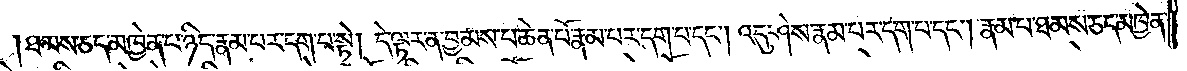ཐམས་ཅད་མཁྱེན་པ་ཉིད་རྣམ་པར་དག་པ་སྟེ། དེ་ལྟར་ན་བྱམས་པ་ཆེན་པོ་རྣམ་པར་དག་པ་དང༌། འདུ་ཤེས་རྣམ་པར་དག་པ་དང༌། རྣམ་པ་ཐམས་ཅད་མཁྱེན་
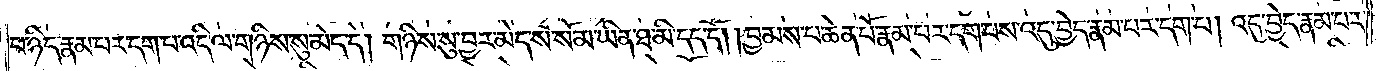པ་ཉིད་རྣམ་པར་དག་པ་འདི་ལ་གཉིས་སུ་མེད་དེ། གཉིས་སུ་བྱར་མེད་སོ་སོ་མ་ཡིན་ཐ་མི་དད་དོ། །བྱམས་པ་ཆེན་པོ་རྣམ་པར་དག་པས་འདུ་བྱེད་རྣམ་པར་དག་པ། འདུ་བྱེད་རྣམ་པར་
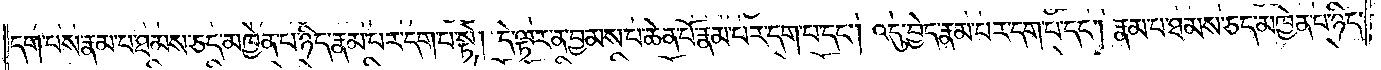དག་པས་རྣམ་པ་ཐམས་ཅད་མཁྱེན་པ་ཉིད་རྣམ་པར་དག་པ་སྟེ། དེ་ལྟར་ན་བྱམས་པ་ཆེན་པོ་རྣམ་པར་དག་པ་དང༌། འདུ་བྱེད་རྣམ་པར་དག་པ་དང༌། རྣམ་པ་ཐམས་ཅད་མཁྱེན་པ་ཉིད་
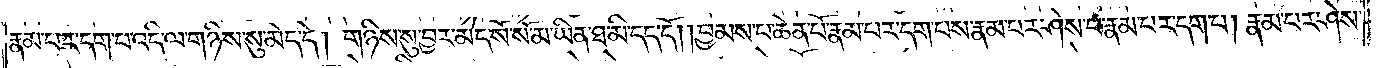རྣམ་པར་དག་པ་འདི་ལ་གཉིས་སུ་མེད་དེ། གཉིས་སུ་བྱར་མེད་སོ་སོ་མ་ཡིན་ཐ་མི་དད་དོ། །བྱམས་པ་ཆེན་པོ་རྣམ་པར་དག་པས་རྣམ་པར་ཤེས་པ་རྣམ་པར་དག་པ། རྣམ་པར་ཤེས་
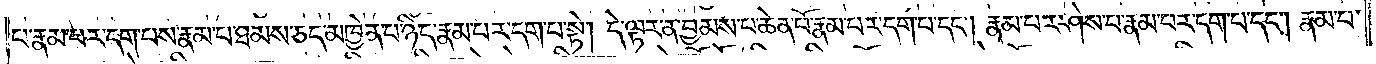པ་རྣམ་པར་དག་པས་རྣམ་པ་ཐམས་ཅད་མཁྱེན་པ་ཉིད་རྣམ་པར་དག་པ་སྟེ། དེ་ལྟར་ན་བྱམས་པ་ཆེན་པོ་རྣམ་པར་དག་པ་དང༌། རྣམ་པར་ཤེས་པ་རྣམ་པར་དག་པ་དང༌། རྣམ་པ་
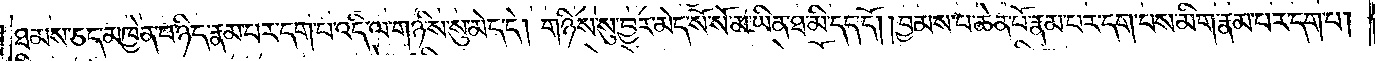ཐམས་ཅད་མཁྱེན་པ་ཉིད་རྣམ་པར་དག་པ་འདི་ལ་གཉིས་སུ་མེད་དེ། གཉིས་སུ་བྱར་མེད་སོ་སོ་མ་ཡིན་ཐ་མི་དད་དོ། །བྱམས་པ་ཆེན་པོ་རྣམ་པར་དག་པས་མིག་རྣམ་པར་དག་པ།
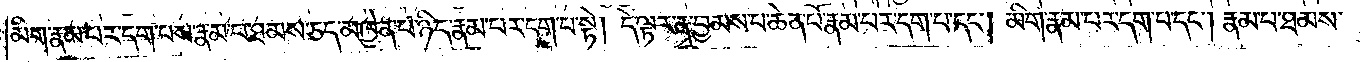མིག་རྣམ་པར་དག་པས་རྣམ་པ་ཐམས་ཅད་མཁྱེན་པ་ཉིད་རྣམ་པར་དག་པ་སྟེ། དེ་ལྟར་ན་བྱམས་པ་ཆེན་པོ་རྣམ་པར་དག་པ་དང༌། མིག་རྣམ་པར་དག་པ་དང༌། རྣམ་པ་ཐམས་
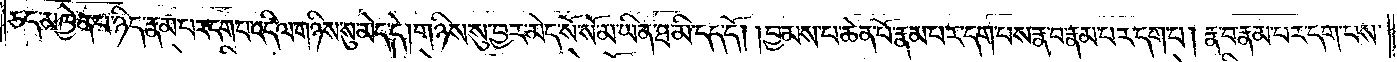ཅད་མཁྱེན་པ་ཉིད་རྣམ་པར་དག་པ་འདི་ལ་གཉིས་སུ་མེད་དེ། གཉིས་སུ་བྱར་མེད་སོ་སོ་མ་ཡིན་ཐ་མི་དད་དོ། །བྱམས་པ་ཆེན་པོ་རྣམ་པར་དག་པས་རྣ་བ་རྣམ་པར་དག་པ། རྣ་བ་རྣམ་པར་དག་པས་
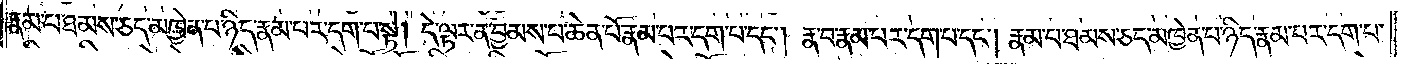རྣམ་པ་ཐམས་ཅད་མཁྱེན་པ་ཉིད་རྣམ་པར་དག་པ་སྟེ། དེ་ལྟར་ན་བྱམས་པ་ཆེན་པོ་རྣམ་པར་དག་པ་དང༌། རྣ་བ་རྣམ་པར་དག་པ་དང༌། རྣམ་པ་ཐམས་ཅད་མཁྱེན་པ་ཉིད་རྣམ་པར་དག་པ་
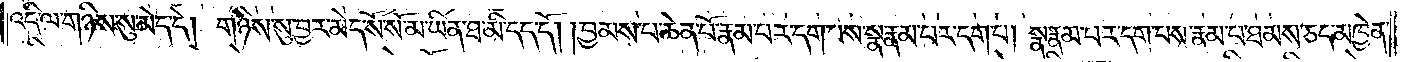འདི་ལ་གཉིས་སུ་མེད་དེ། གཉིས་སུ་བྱར་མེད་སོ་སོ་མ་ཡིན་ཐ་མི་དད་དོ། །བྱམས་པ་ཆེན་པོ་རྣམ་པར་དག་པས་སྣ་རྣམ་པར་དག་པ། སྣ་རྣམ་པར་དག་པས་རྣམ་པ་ཐམས་ཅད་མཁྱེན་
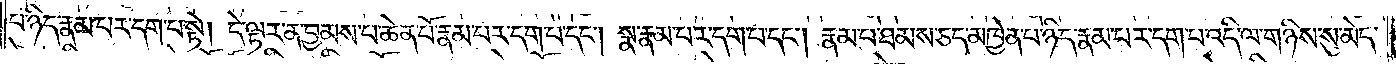པ་ཉིད་རྣམ་པར་དག་པ་སྟེ། དེ་ལྟར་ན་བྱམས་པ་ཆེན་པོ་རྣམ་པར་དག་པ་དང༌། སྣ་རྣམ་པར་དག་པ་དང༌། རྣམ་པ་ཐམས་ཅད་མཁྱེན་པ་ཉིད་རྣམ་པར་དག་པ་འདི་ལ་གཉིས་སུ་མེད་
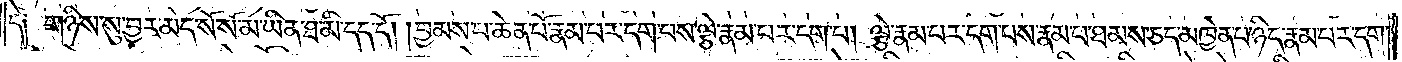དེ༑ གཉིས་སུ་བྱར་མེད་སོ་སོ་མ་ཡིན་ཐ་མི་དད་དོ། །བྱམས་པ་ཆེན་པོ་རྣམ་པར་དག་པས་ལྕེ་རྣམ་པར་དག་པ། ལྕེ་རྣམ་པར་དག་པས་རྣམ་པ་ཐམས་ཅད་མཁྱེན་པ་ཉིད་རྣམ་པར་དག་
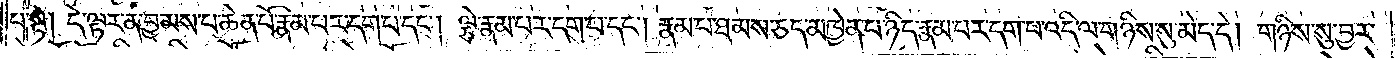པ་སྟེ། དེ་ལྟར་ན་བྱམས་པ་ཆེན་པོ་རྣམ་པར་དག་པ་དང༌། ལྕེ་རྣམ་པར་དག་པ་དང༌། རྣམ་པ་ཐམས་ཅད་མཁྱེན་པ་ཉིད་རྣམ་པར་དག་པ་འདི་ལ་གཉིས་སུ་མེད་དེ། གཉིས་སུ་བྱར་
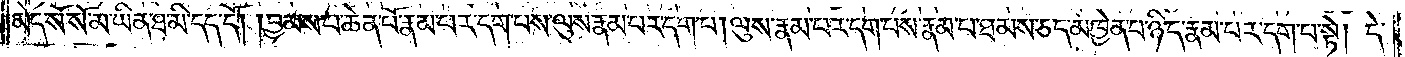མེད་སོ་སོ་མ་ཡིན་ཐ་མི་དད་དོ། །བྱམས་པ་ཆེན་པོ་རྣམ་པར་དག་པས་ལུས་རྣམ་པར་དག་པ། ལུས་རྣམ་པར་དག་པས་རྣམ་པ་ཐམས་ཅད་མཁྱེན་པ་ཉིད་རྣམ་པར་དག་པ་སྟེ། དེ་
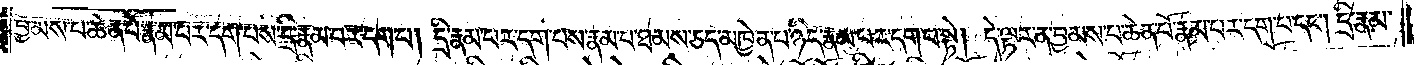བྱམས་པ་ཆེན་པོ་རྣམ་པར་དག་པས་དྲི་རྣམ་པར་དག་པ། དྲི་རྣམ་པར་དག་པས་རྣམ་པ་ཐམས་ཅད་མཁྱེན་པ་ཉིད་རྣམ་པར་དག་པ་སྟེ། དེ་ལྟར་ན་བྱམས་པ་ཆེན་པོ་རྣམ་པར་དག་པ་དང༌། དྲི་རྣམ་
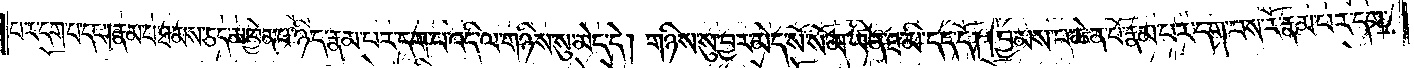པར་དག་པ་དང༌། རྣམ་པ་ཐམས་ཅད་མཁྱེན་པ་ཉིད་རྣམ་པར་དག་པ་འདི་ལ་གཉིས་སུ་མེད་དེ། གཉིས་སུ་བྱར་མེད་སོ་སོ་མ་ཡིན་ཐ་མི་དད་དོ། །བྱམས་པ་ཆེན་པོ་རྣམ་པར་དག་པས་རོ་རྣམ་པར་དག་
